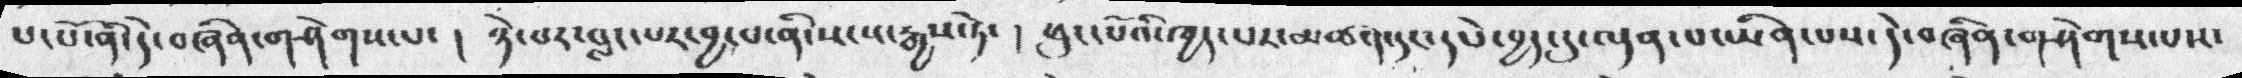པ་པོ་ནི་དེ་བཞིན་གཤེགས་པ་།  ཉེ་བར་བླང་པར་བྱ་པ་ནི་སངས་རྒྱས་ཏེ་།  ཕུང་པོའི་ཁྱད་པར་མཚན་དང་དཔེ་བྱད་དུ་ལྡན་པ་ཡིན་པས་དེ་བཞཱིན་གཤེགས་པས་
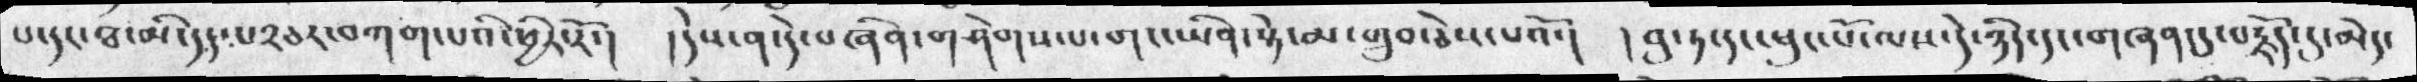པ་དང་ཐ་མི་དད་པ༢ཅར་བཀག་པའི་ཕྱིར་རོ་།  །དེས་ན་དེ་བཞིན་གཤེགས་པ་གང་ཡིན་སྟེ་མ་གྲུབ་ཅེས་པའོ་།  །བུ་ཏ་དང་ཕུང་པོ་ལས་དེ་ཉིད་གཞན་དུ་བརྗོད་དུ་མེད་
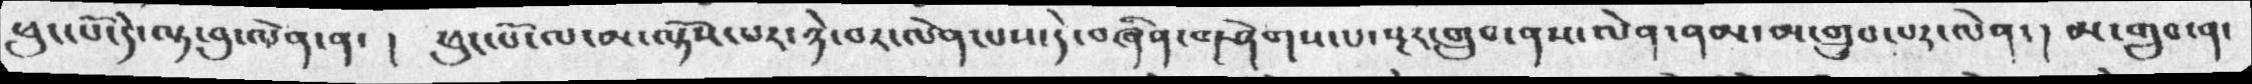ཕུང་པོ་དེ་ལྟ་བུ་ལེན་ན་།  ཕུང་པོ་ལ་མ་ལྟོས་པར་ཉེ་བར་ལེན་པས་དེ་བཞཱིན་གཤེགས་པ་སྔར་གྲུབ་ནས་ལེན་ནམ་མ་གྲུབ་པར་ལེན་། མ་གྲུབ་ན་
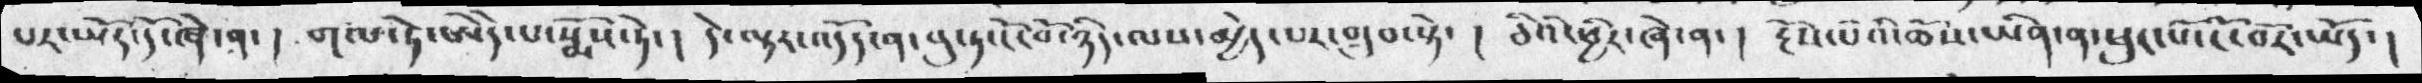པར་ཡོད་དོ་ཞེ་ན་། གལ་ཏེ་ཨེདེ་པ་སྨོས་ཏེ་། དེ་ལྟར་འདོད་ན་བུ་ཏ་ངོ་བོ་ཉིད་ལས་མྱེད་པར་གྲུབ་སྟེ་།  ཅིའི་ཕྱིར་ཞེ་ན་།  རྔོས་པའི་ཆོས་ཡིན་ན་ཕུང་པོ་ངོ་བོར་ཡོད་།
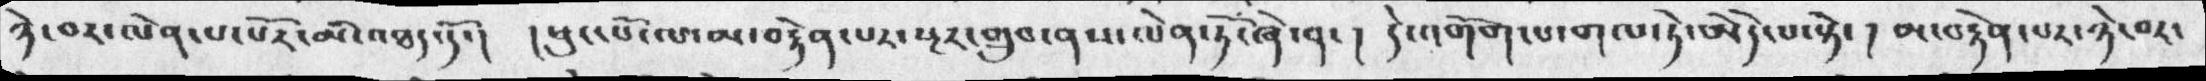ཉེ་བར་ལེན་པ་པོར་མི་འཐད་དོ་། །ཕུང་པོ་ལ་མ་བརྟེན་པར་སྔར་གྲུབ་ནས་ལེན་ཏོ་ཞེ་ན་།  དེ་འགོག་པ་དལ་ཏེ་ཨེདེ་པ་སྟེ་། མ་བརྟེན་པར་ཉེ་བར་
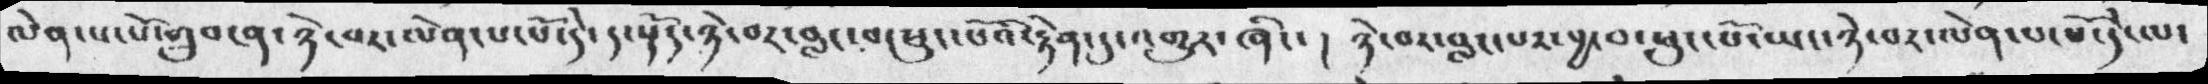ལེན་པ་པོ་གྲུབ་ན་ཉེ་བར་ལེན་པ་པོ་དེ་ད་སྡོད་ཉེ་བར་བླང་བ་ཕུང་པོའི་རྟེན་དུ་འགྱུར་ཞིང་།  ཉེ་བར་བླང་པར་བྱ་བ་ཕུང་པོ་ཡང་ཉེ་བར་ལེན་པ་པོ་དེ་ལ་
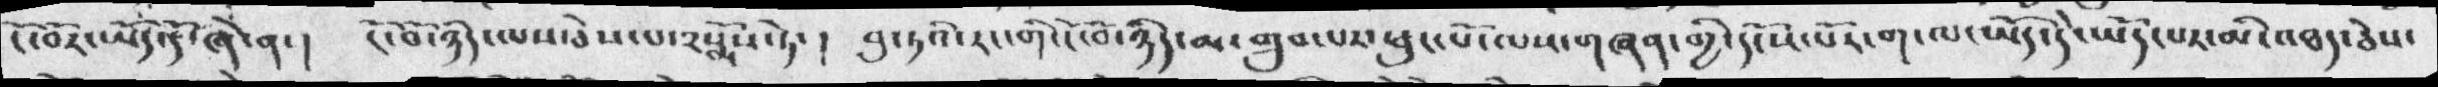ངོ་བོར་ཡོད་དོ་ཞེ་ན་།  ངོ་བོ་ཉིད་ལས་ཅེས་པ་༢སྨོས་ཏེ་།  བུ་ཏའི་རང་གི་ངོ་བོ་ཉིད་མ་གྲུབ་པར་ཕུང་པོ་ལས་གཞན་གྱི་དངོས་པོར་ག་ལ་ཡོད་དེ་ཡོད་པར་མི་འཐད་ཅེས་
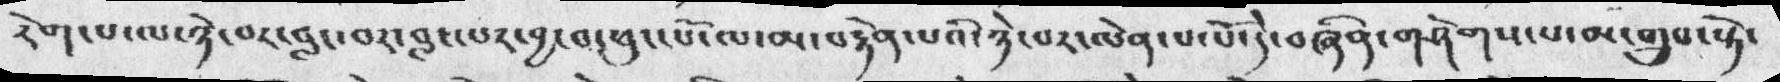རེག་པ་ལ་ཉེ་བར་བླང་བར་བླང་པར་བྱ་བ་ཕུང་པོ་ལ་མ་བརྟེན་པའི་ཉེ་བར་ལེན་པ་པོ་དེ་བཞིན་གཤེགས་པ་མ་གྲུབ་སྟེ་
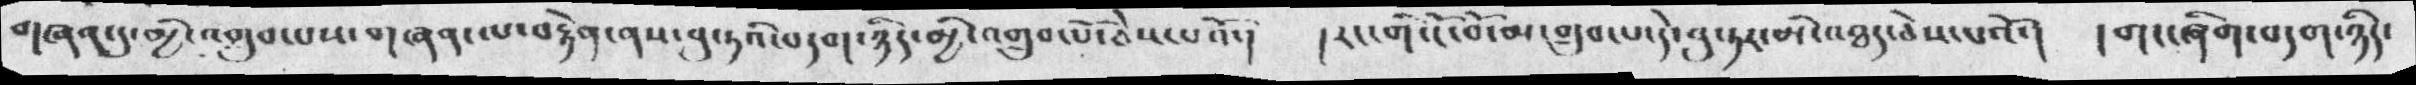གཞན་དུ་མྱི་འགྲུབ་པས་གཞན་ལ་བརྟེན་ནས་བུ་ཏའི་བདག་ཉིད་མྱི་འགྲུབ་པོ་ཅེས་པའོ་།  །རང་གི་ངོ་བོ་མ་གྲུབ་པ་དེ་བུ་ཏར་མི་འཐད་ཅེས་པའོ་།  །གང་ཞིག་བདག་ཉིད་
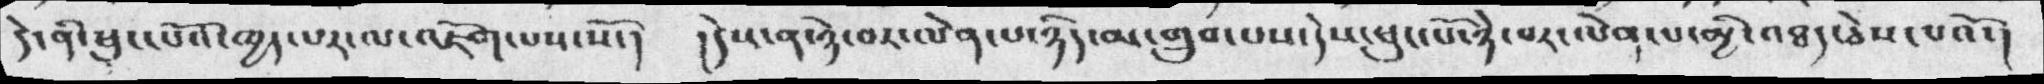དེ་ནི་ཕུང་པོའི་ཁྱད་པར་ལ་འཇོག་པས་སོ་།  །དེས་ན་ཉེ་བར་ལེན་པ་ཉིད་མ་གྲུབ་པས་དེས་ཕུང་པོ་ཉེ་བར་ལེན་པ་མྱི་འཐད་ཅེས་པའོ་།
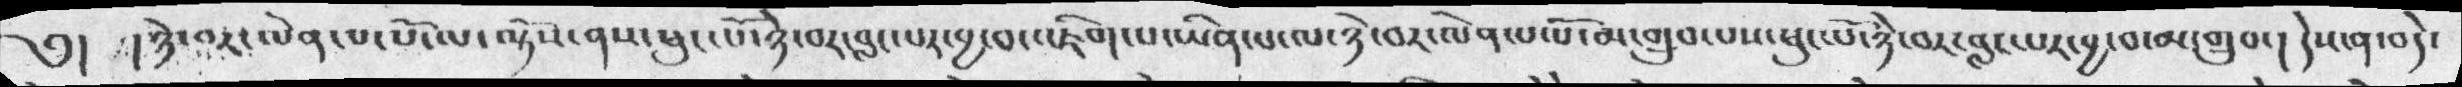༅།  །ཉེ་བར་ལེན་པ་པོ་ལ་ལྟོས་ནས་ཕུང་པོ་ཉེ་བར་བླང་པར་བྱ་བ་འཇིག་པ་ཡིན་པ་ལ་ཉེ་བར་ལེན་པ་པོ་མ་གྲུབ་པས་ཕུང་པོ་ཉེ་བར་བླང་པར་བྱ་བ་མ་གྲུབ་། དེས་ན་བདེ་
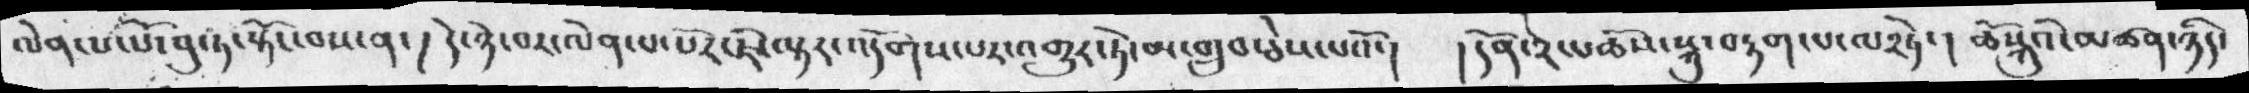ལེན་པ་པོ་བུ་ཏ་སྟོང་བས་ན་། དེ་ཉེ་བར་ལེན་པ་པོར་ཇི་ལྟར་འདོགས་པར་འགྱུར་ཏེ་མ་གྲུབ་ཅེས་པའོ་།  །དོན་༢་པཆོས་སྐུ་བརྟག་པ་ལ༢ཏེ་། ཆོསྐུའི་མཚན་ཉིད་
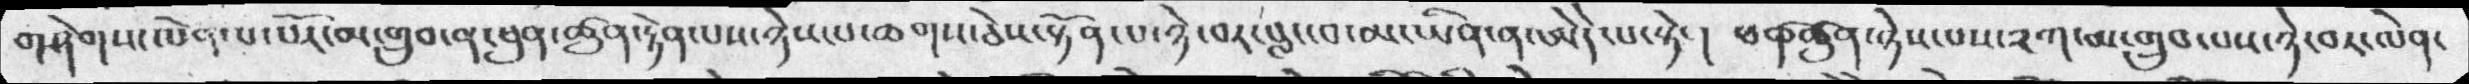གཤེགས་ལེན་པ་པོར་མ་གྲུབ་ན་ཕུན་ཚུན་རྟེན་པས་ཉེས་པ་ཆགས་ཅེས་སྟོན་པ་ཉེ་བར་བླང་བ་མ་ཡིན་ན་ཨེདེ་པ་སྟེ་། ཕན་ཚུན་ཉེས་པས་༢ཀ་མ་གྲུབ་པས་ཉེ་བར་ལེན་
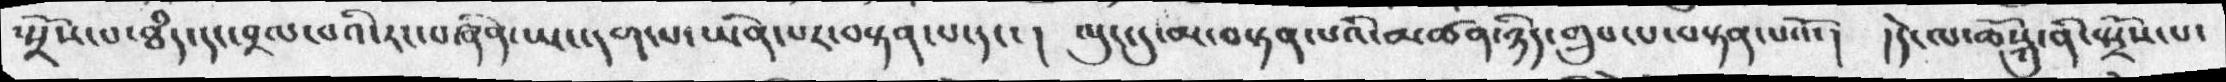སྤྲོས་པ་ཐཾད་དང་བྲལ་བའི་རང་བཞིན་ཡང་དག་པ་ཡིན་པར་བསྟན་པ་དང་། ལུང་དུ་མ་བསྟན་པའི་མཚན་ཉིད་གྲུབ་པ་བསྟན་པའོ་།  །དེ་ལ་ཆོསྐུ་ནི་སྤྲོས་པ་
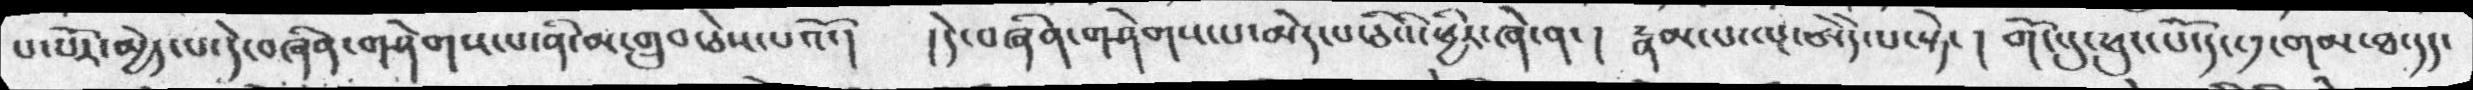པ་པོར་མྱེད་པ་དེ་བཞིན་གཤེགས་པ་ནི་མ་གྲུབ་ཅེས་པའོ་། །དེ་བཞིན་གཤེགས་པ་མེད་པ་ཅིའི་ཕྱིར་ཞེ་ན་།  རྣམ་པ་ལྔ་ཨེདེ་པ་སྟེ་། གོང་དུ་ཕུང་པོ་དང་༡་གམ་ཐ་དད་
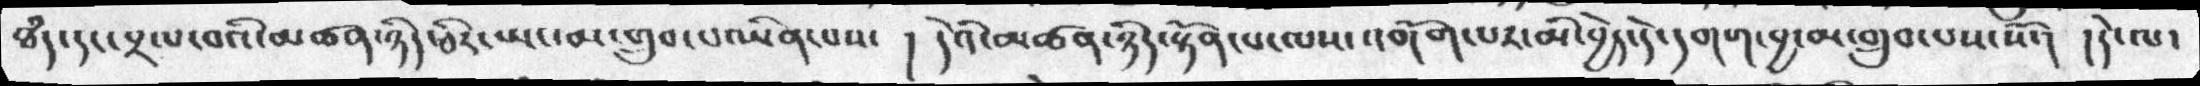ཐཾད་དང་བྲལ་བའི་མཚན་ཉིད་ཅིར་ཡང་མ་གྲུབ་པ་ཡིན་པས་།  དེའི་མཚན་ཉིད་སྟོན་པ་ལས་འགོག་པར་མི་བྱེད་དེ་དགག་བྱ་མ་གྲུབ་པས་སོ་། །དེ་ལ་
